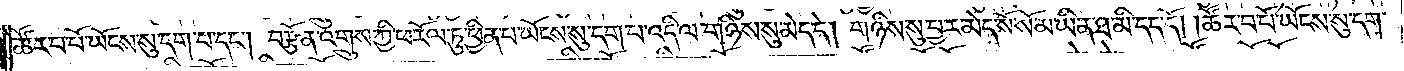ཚོར་བ་པོ་ཡོངས་སུ་དག་པ་དང༌། བརྩོན་འགྲུས་ཀྱི་ཕ་རོལ་ཏུ་ཕྱིན་པ་ཡོངས་སུ་དག་པ་འདི་ལ་གཉིས་སུ་མེད་དེ། གཉིས་སུ་བྱར་མེད་སོ་སོ་མ་ཡིན་ཐ་མི་དད་དོ། །ཚོར་བ་པོ་ཡོངས་སུ་དག་
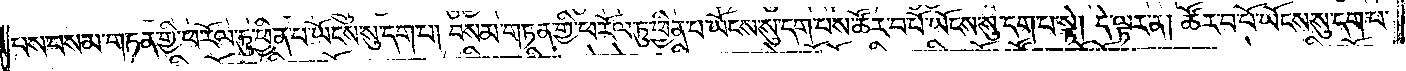པས་བསམ་གཏན་གྱི་ཕ་རོལ་ཏུ་ཕྱིན་པ་ཡོངས་སུ་དག་པ། བསམ་གཏན་གྱི་ཕ་རོལ་ཏུ་ཕྱིན་པ་ཡོངས་སུ་དག་པས་ཚོར་བ་པོ་ཡོངས་སུ་དག་པ་སྟེ། དེ་ལྟར་ན། ཚོར་བ་པོ་ཡོངས་སུ་དག་པ་
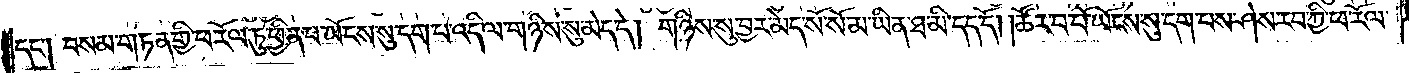དང༌། བསམ་གཏན་གྱི་ཕ་རོལ་ཏུ་ཕྱིན་པ་ཡོངས་སུ་དག་པ་འདི་ལ་གཉིས་སུ་མེད་དེ། གཉིས་སུ་བྱར་མེད་སོ་སོ་མ་ཡིན་ཐ་མི་དད་དོ། །ཚོར་བ་པོ་ཡོངས་སུ་དག་པས་ཤེས་རབ་ཀྱི་ཕ་རོལ་
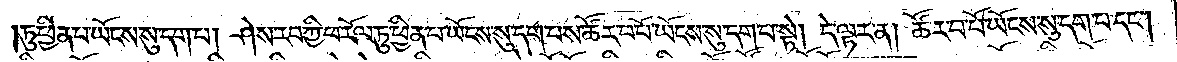ཏུ་ཕྱིན་པ་ཡོངས་སུ་དག་པ། ཤེས་རབ་ཀྱི་ཕ་རོལ་ཏུ་ཕྱིན་པ་ཡོངས་སུ་དག་པས་ཚོར་བ་པོ་ཡོངས་སུ་དག་པ་སྟེ། དེ་ལྟར་ན། ཚོར་བ་པོ་ཡོངས་སུ་དག་པ་དང༌།
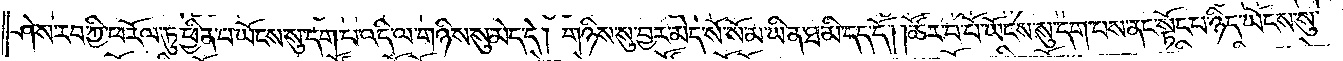ཤེས་རབ་ཀྱི་ཕ་རོལ་ཏུ་ཕྱིན་པ་ཡོངས་སུ་དག་པ་འདི་ལ་གཉིས་སུ་མེད་དེ། གཉིས་སུ་བྱར་མེད་སོ་སོ་མ་ཡིན་ཐ་མི་དད་དོ། །ཚོར་བ་པོ་ཡོངས་སུ་དག་པས་ནང་སྟོང་པ་ཉིད་ཡོངས་སུ་
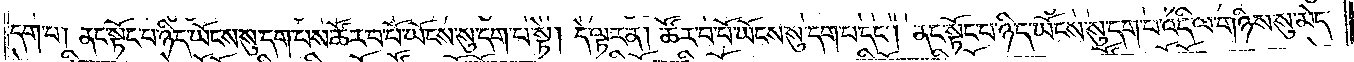དག་པ། ནང་སྟོང་པ་ཉིད་ཡོངས་སུ་དག་པས་ཚོར་བ་པོ་ཡོངས་སུ་དག་པ་སྟེ། དེ་ལྟར་ན། ཚོར་བ་པོ་ཡོངས་སུ་དག་པ་དང༌། ནང་སྟོང་པ་ཉིད་ཡོངས་སུ་དག་པ་འདི་ལ་གཉིས་སུ་མེད་
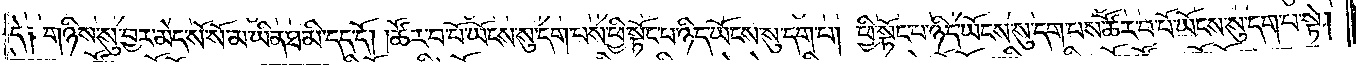དེ༑ གཉིས་སུ་བྱར་མེད་སོ་སོ་མ་ཡིན་ཐ་མི་དད་དོ། །ཚོར་བ་པོ་ཡོངས་སུ་དག་པས་ཕྱི་སྟོང་པ་ཉིད་ཡོངས་སུ་དག་པ། ཕྱི་སྟོང་པ་ཉིད་ཡོངས་སུ་དག་པས་ཚོར་བ་པོ་ཡོངས་སུ་དག་པ་སྟེ།
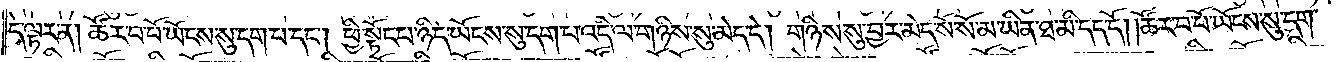དེ་ལྟར་ན། ཚོར་བ་པོ་ཡོངས་སུ་དག་པ་དང༌། ཕྱི་སྟོང་པ་ཉིད་ཡོངས་སུ་དག་པ་འདི་ལ་གཉིས་སུ་མེད་དེ། གཉིས་སུ་བྱར་མེད་སོ་སོ་མ་ཡིན་ཐ་མི་དད་དོ། །ཚོར་བ་པོ་ཡོངས་སུ་དག་
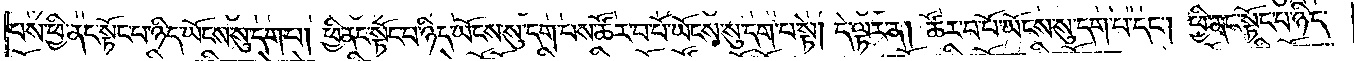པས་ཕྱི་ནང་སྟོང་པ་ཉིད་ཡོངས་སུ་དག་པ། ཕྱི་ནང་སྟོང་པ་ཉིད་ཡོངས་སུ་དག་པས་ཚོར་བ་པོ་ཡོངས་སུ་དག་པ་སྟེ། དེ་ལྟར་ན། ཚོར་བ་པོ་ཡོངས་སུ་དག་པ་དང༌། ཕྱི་ནང་སྟོང་པ་ཉིད་
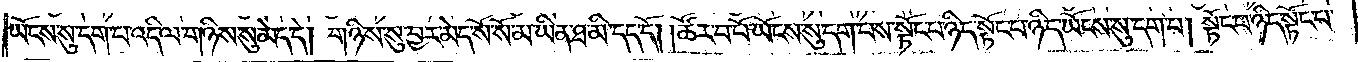ཡོངས་སུ་དག་པ་འདི་ལ་གཉིས་སུ་མེད་དེ། གཉིས་སུ་བྱར་མེད་སོ་སོ་མ་ཡིན་ཐ་མི་དད་དོ། །ཚོར་བ་པོ་ཡོངས་སུ་དག་པས་སྟོང་པ་ཉིད་སྟོང་པ་ཉིད་ཡོངས་སུ་དག་པ། སྟོང་པ་ཉིད་སྟོང་པ་
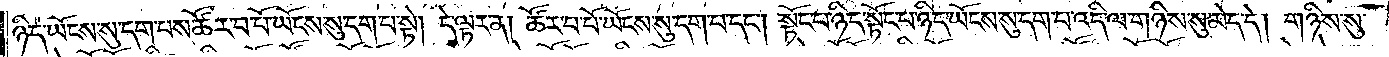ཉིད་ཡོངས་སུ་དག་པས་ཚོར་བ་པོ་ཡོངས་སུ་དག་པ་སྟེ། དེ་ལྟར་ན། ཚོར་བ་པོ་ཡོངས་སུ་དག་པ་དང༌། སྟོང་པ་ཉིད་སྟོང་པ་ཉིད་ཡོངས་སུ་དག་པ་འདི་ལ་གཉིས་སུ་མེད་དེ། གཉིས་སུ་
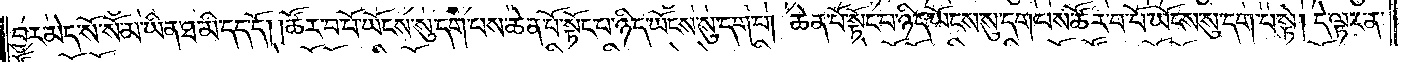བྱར་མེད་སོ་སོ་མ་ཡིན་ཐ་མི་དད་དོ། །ཚོར་བ་པོ་ཡོངས་སུ་དག་པས་ཆེན་པོ་སྟོང་པ་ཉིད་ཡོངས་སུ་དག་པ། ཆེན་པོ་སྟོང་པ་ཉིད་ཡོངས་སུ་དག་པས་ཚོར་བ་པོ་ཡོངས་སུ་དག་པ་སྟེ། དེ་ལྟར་ན།
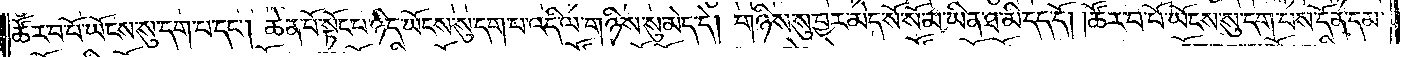ཚོར་བ་པོ་ཡོངས་སུ་དག་པ་དང༌། ཆེན་པོ་སྟོང་པ་ཉིད་ཡོངས་སུ་དག་པ་འདི་ལ་གཉིས་སུ་མེད་དེ། གཉིས་སུ་བྱར་མེད་སོ་སོ་མ་ཡིན་ཐ་མི་དད་དོ། །ཚོར་བ་པོ་ཡོངས་སུ་དག་པས་དོན་དམ་
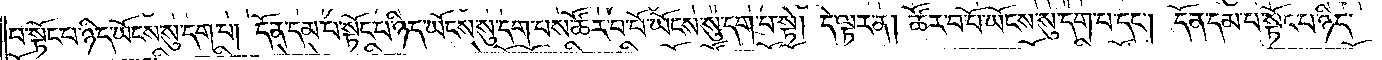པ་སྟོང་པ་ཉིད་ཡོངས་སུ་དག་པ། དོན་དམ་པ་སྟོང་པ་ཉིད་ཡོངས་སུ་དག་པས་ཚོར་བ་པོ་ཡོངས་སུ་དག་པ་སྟེ། དེ་ལྟར་ན། ཚོར་བ་པོ་ཡོངས་སུ་དག་པ་དང༌། དོན་དམ་པ་སྟོང་པ་ཉིད་
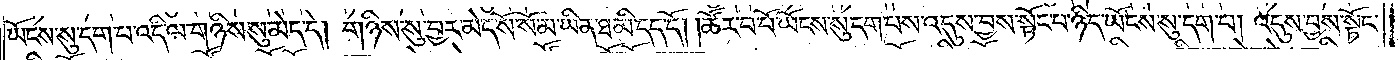ཡོངས་སུ་དག་པ་འདི་ལ་གཉིས་སུ་མེད་དེ། གཉིས་སུ་བྱར་མེད་སོ་སོ་མ་ཡིན་ཐ་མི་དད་དོ། །ཚོར་བ་པོ་ཡོངས་སུ་དག་པས་འདུས་བྱས་སྟོང་པ་ཉིད་ཡོངས་སུ་དག་པ། འདུས་བྱས་སྟོང་
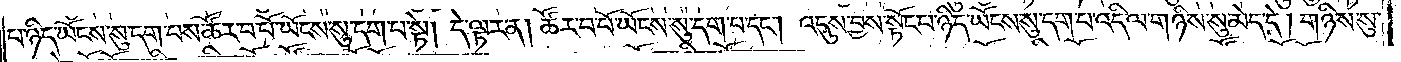པ་ཉིད་ཡོངས་སུ་དག་པས་ཚོར་བ་པོ་ཡོངས་སུ་དག་པ་སྟེ། དེ་ལྟར་ན། ཚོར་བ་པོ་ཡོངས་སུ་དག་པ་དང༌། འདུས་བྱས་སྟོང་པ་ཉིད་ཡོངས་སུ་དག་པ་འདི་ལ་གཉིས་སུ་མེད་དེ། གཉིས་སུ་
